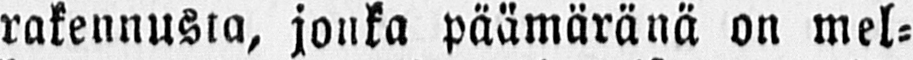rakennusta, jonka päämäränä on mel-
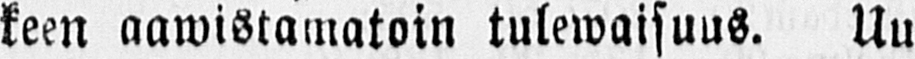keen aawistamatoin tulewaisuus. Uu
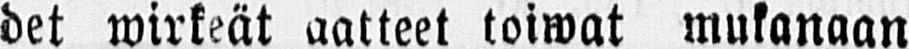det wirkeät aatteet toiwat mukanaan
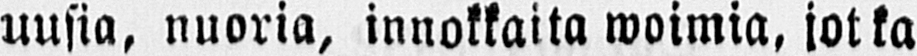uusia, nuoria, innokkaita woimia, jotka
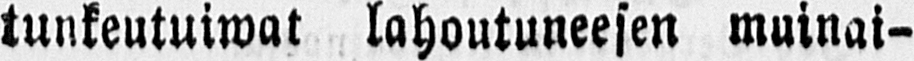tunkeutuiwat lahoutuneesen muinai-
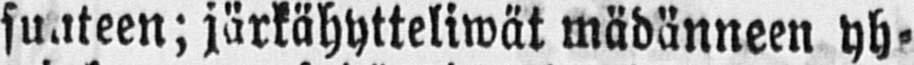suuteen; järkähytteliwät mädänneen yh-
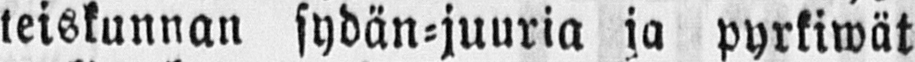teiskunnan sydän-juuria ja pyrkiwät
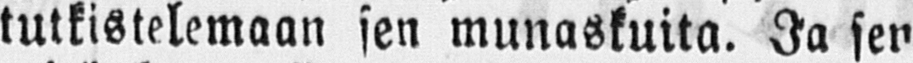tutkistelemaan sen munaskuita. Ja sen
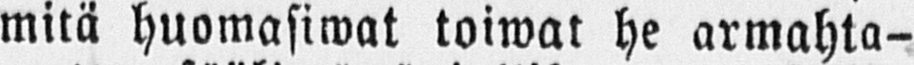mitä huomasiwat toiwat he armahta-
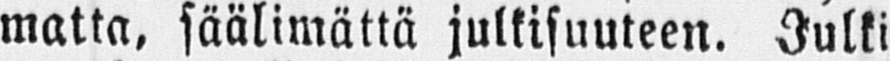matta, säälimättä julkisuuteen. Julki
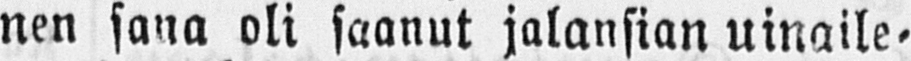nen sana oli saanut jalansian uinaile-
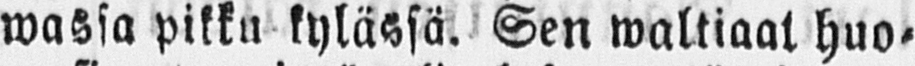wassa pikku kylässä. Sen waltiaat huo-
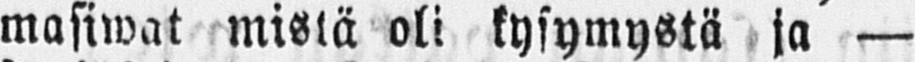masiwat mistä oli kysymystä ja —
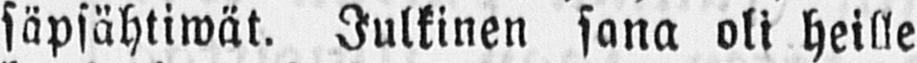säpsähtiwät. Julkinen sana oli heille
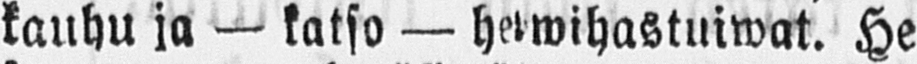kauhu ja — katso — helwihastuiwat. He
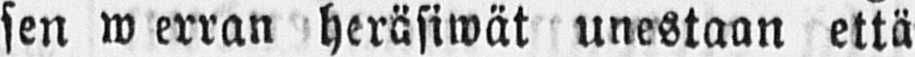sen werran heräsiwät unestaan että
